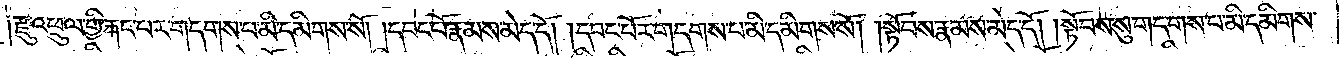དོ༑ ༑རྫུ་འཕྲུལ་གྱི་རྐང་པར་གདགས་པ་མི་དམིགས་སོ། །དབང་པོ་རྣམས་མེད་དོ། །དབང་པོར་གདགས་པ་མི་དམིགས་སོ། །སྟོབས་རྣམས་མེད་དོ། །སྟོབས་སུ་གདགས་པ་མི་དམིགས་
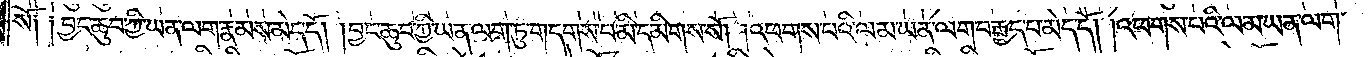སོ༑ ༑བྱང་ཆུབ་ཀྱི་ཡན་ལག་རྣམ་སུ་མེད་དོ། །བྱང་ཆུབ་ཀྱི་ཡན་ལག་ཏུ་གདགས་པ་མི་དམིགས་སོ། །འཕགས་པའི་ལམ་ཡན་ལག་བརྒྱད་པ་མེད་དོ། །འཕགས་པའི་ལམ་ཡན་ལག་
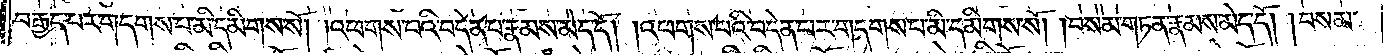བརྒྱད་པར་གདགས་པ་མི་དམིགས་སོ། །འཕགས་པའི་བདེན་པ་རྣམས་མེད་དོ། །འཕགས་པའི་བདེན་པར་གདགས་པ་མི་དམིགས་སོ། །བསམ་གཏན་རྣམས་མེད་དོ། །བསམ་
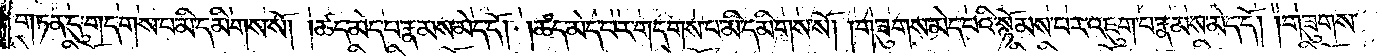གཏན་དུ་གདགས་པ་མི་དམིགས་སོ། །ཚད་མེད་པ་རྣམས་མེད་དོ། །ཚད་མེད་པར་གདགས་པ་མི་དམིགས་སོ། །གཟུགས་མེད་པའི་སྙོམས་པར་འཇུག་པ་རྣམས་མེད་དོ། །གཟུགས་
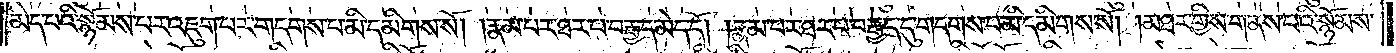མེད་པའི་སྙོམས་པར་འཇུག་པར་གདགས་པ་མི་དམིགས་སོ། །རྣམ་པར་ཐར་པ་བརྒྱད་མེད་དོ། །རྣམ་པར་ཐར་པ་བརྒྱད་དུ་གདགས་པ་མི་དམིགས་སོ། །མཐར་གྱིས་གནས་པའི་སྙོམས་
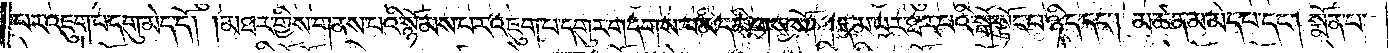པར་འཇུག་པ་དགུ་མེད་དོ། །མཐར་གྱིས་གནས་པའི་སྙོམས་པར་འཇུག་པ་དགུར་གདགས་པ་མི་དམིགས་སོ། །རྣམ་པར་ཐར་པའི་སྒོ་སྟོང་པ་ཉིད་དང༌། མཚན་མ་མེད་པ་དང༌། སྨོན་པ་
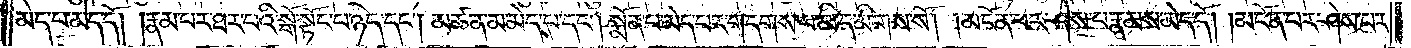མེད་པ་མེད་དོ། །རྣམ་པར་ཐར་པའི་སྒོ་སྟོང་པ་ཉིད་དང༌། མཚན་མ་མེད་པ་དང༌། སྨོན་པ་མེད་པར་གདགས་པ་མི་དམིགས་སོ། །མངོན་པར་ཤེས་པ་རྣམས་མེད་དོ། །མངོན་པར་ཤེས་པར་
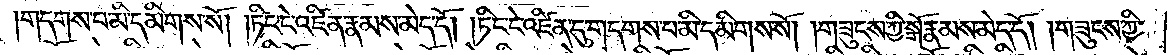གདགས་པ་མི་དམིགས་སོ། །ཏིང་ངེ་འཛིན་རྣམས་མེད་དོ། །ཏིང་ངེ་འཛིན་དུ་གདགས་པ་མི་དམིགས་སོ། །གཟུངས་ཀྱི་སྒོ་རྣམས་མེད་དོ། །གཟུངས་ཀྱི་
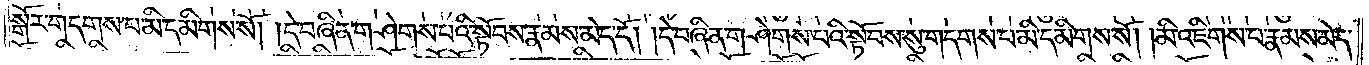སྒོར་གདགས་པ་མི་དམིགས་སོ། །དེ་བཞིན་གཤེགས་པའི་སྟོབས་རྣམས་མེད་དོ། །དེ་བཞིན་གཤེགས་པའི་སྟོབས་སུ་གདགས་པ་མི་དམིགས་སོ། །མི་འཇིགས་པ་རྣམས་མེད་
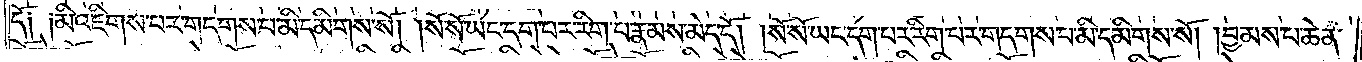དོ༑ ༑མི་འཇིགས་པར་གདགས་པ་མི་དམིགས་སོ། །སོ་སོ་ཡང་དག་པར་རིག་པ་རྣམས་མེད་དོ། །སོ་སོ་ཡང་དག་པར་རིག་པར་གདགས་པ་མི་དམིགས་སོ། །བྱམས་པ་ཆེན་
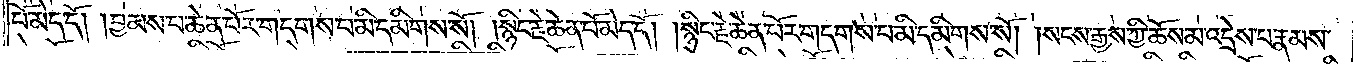པོ་མེད་དོ། །བྱམས་པ་ཆེན་པོར་གདགས་པ་མི་དམིགས་སོ། །སྙིང་རྗེ་ཆེན་པོ་མེད་དོ། །སྙིང་རྗེ་ཆེན་པོར་གདགས་པ་མི་དམིགས་སོ། །སངས་རྒྱས་ཀྱི་ཆོས་མ་འདྲེས་པ་རྣམས་
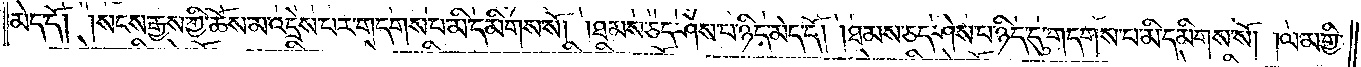མེད་དོ། །སངས་རྒྱས་ཀྱི་ཆོས་མ་འདྲེས་པར་གདགས་པ་མི་དམིགས་སོ། །ཐམས་ཅད་ཤེས་པ་ཉིད་མེད་དོ། །ཐམས་ཅད་ཤེས་པ་ཉིད་དུ་གདགས་པ་མི་དམིགས་སོ། །ལམ་གྱི་
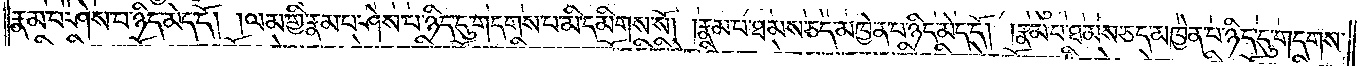རྣམ་པར་ཤེས་པ་ཉིད་མེད་དོ། །ལམ་གྱི་རྣམ་པ་ཤེས་པ་ཉིད་དུ་གདགས་པ་མི་དམིགས་སོ། །རྣམ་པ་ཐམས་ཅད་མཁྱེན་པ་ཉིད་མེད་དོ། །རྣམ་པ་ཐམས་ཅད་མཁྱེན་པ་ཉིད་དུ་གདགས་
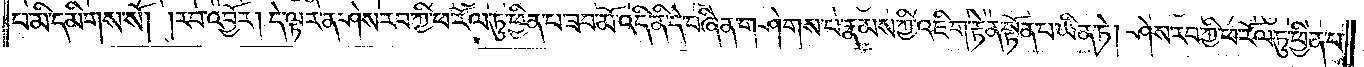པ་མི་དམིགས་སོ། །རབ་འབྱོར། དེ་ལྟར་ན་ཤེས་རབ་ཀྱི་ཕ་རོལ་ཏུ་ཕྱིན་པ་ཟབ་མོ་འདི་ནི་དེ་བཞིན་གཤེགས་པ་རྣམས་ཀྱི་འཇིག་རྟེན་སྟོན་པ་ཡིན་ཏེ། ཤེས་རབ་ཀྱི་ཕ་རོལ་ཏུ་ཕྱིན་པ་
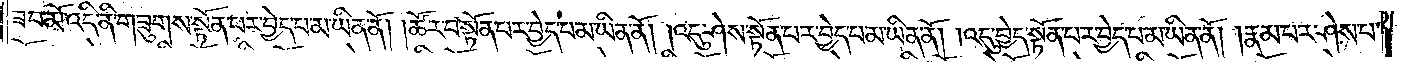ཟབ་མོ་འདི་ནི་གཟུགས་སྟོན་པར་བྱེད་པ་མ་ཡིན་ནོ། །ཚོར་བ་སྟོན་པར་བྱེད་པ་མ་ཡིན་ནོ། །འདུ་ཤེས་སྟོན་པར་བྱེད་པ་མ་ཡིན་ནོ། །འདུ་བྱེད་སྟོན་པར་བྱེད་པ་མ་ཡིན་ནོ། །རྣམ་པར་ཤེས་པ་
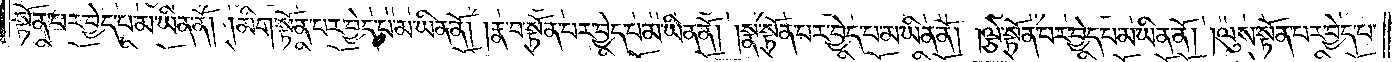སྟོན་པར་བྱེད་པ་མ་ཡིན་ནོ། །མིག་སྟོན་པར་བྱེད་པ་མ་ཡིན་ནོ། །རྣ་བ་སྟོན་པར་བྱེད་པ་མ་ཡིན་ནོ། །སྣ་སྟོན་པར་བྱེད་པ་མ་ཡིན་ནོ། །ལྕེ་སྟོན་པར་བྱེད་པ་མ་ཡིན་ནོ། །ལུས་སྟོན་པར་བྱེད་པ་
